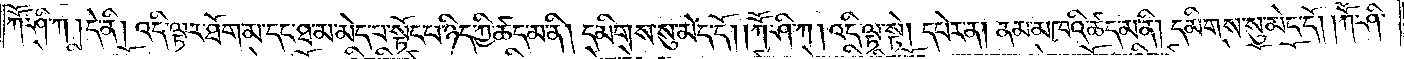ཀཽ་ཤི་ཀ །དེ་ནི། འདི་ལྟར་ཐོག་མ་དང་ཐ་མ་མེད་པ་སྟོང་པ་ཉིད་ཀྱི་ཚད་མ་ནི། དམིགས་སུ་མེད་དོ། །ཀཽ་ཤི་ཀ། འདི་ལྟ་སྟེ། དཔེར་ན། ནམ་མཁའི་ཚད་མ་ནི། དམིགས་སུ་མེད་དོ། །ཀཽ་ཤི་
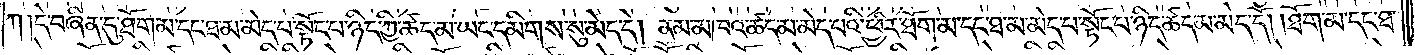ཀ །དེ་བཞིན་དུ་ཐོག་མ་དང་ཐ་མ་མེད་པ་སྟོང་པ་ཉིད་ཀྱི་ཚད་མ་ཡང་དམིགས་སུ་མེད་དེ། ནམ་མཁའ་ཚད་མ་མེད་པའི་ཕྱིར་ཐོག་མ་དང་ཐ་མ་མེད་པ་སྟོང་པ་ཉིད་ཚད་མེད་དོ། །ཐོག་མ་དང་ཐ་
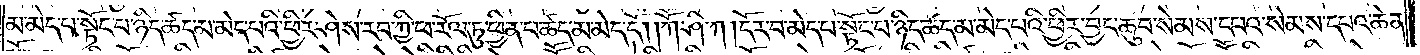མ་མེད་པ་སྟོང་པ་ཉིད་ཚད་མ་མེད་པའི་ཕྱིར་ཤེས་རབ་ཀྱི་ཕ་རོལ་ཏུ་ཕྱིན་པ་ཚད་མ་མེད་དོ། །ཀཽ་ཤི་ཀ །དོར་བ་མེད་པ་སྟོང་པ་ཉིད་ཚད་མ་མེད་པའི་ཕྱིར་བྱང་ཆུབ་སེམས་དཔའ་སེམས་དཔའ་ཆེན་
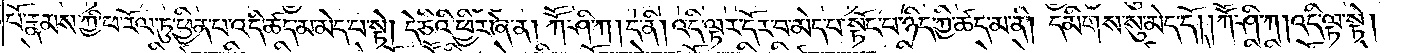པོ་རྣམས་ཀྱི་ཕ་རོལ་ཏུ་ཕྱིན་པ་འདི་ཚད་མ་མེད་པ་སྟེ། དེ་ཅིའི་ཕྱིར་ཞེ་ན། ཀཽ་ཤི་ཀ །དེ་ནི། འདི་ལྟར་དོར་བ་མེད་པ་སྟོང་པ་ཉིད་ཀྱི་ཚད་མ་ནི། དམིགས་སུ་མེད་དོ། །ཀཽ་ཤི་ཀ །འདི་ལྟ་སྟེ། །
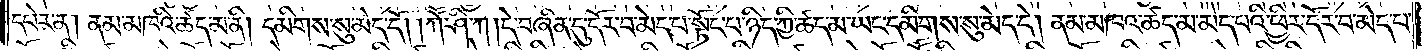དཔེར་ན། ནམ་མཁའི་ཚད་མ་ནི། དམིགས་སུ་མེད་དོ། །ཀཽ་ཤི་ཀ །དེ་བཞིན་དུ་དོར་བ་མེད་པ་སྟོང་པ་ཉིད་ཀྱི་ཚད་མ་ཡང་དམིགས་སུ་མེད་དེ། ནམ་མཁའ་ཚད་མ་མེད་པའི་ཕྱིར་དོར་བ་མེད་པ་
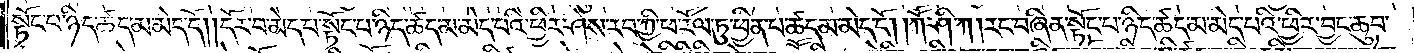སྟོང་པ་ཉིད་ཚད་མ་མེད་དོ། །དོར་བ་མེད་པ་སྟོང་པ་ཉིད་ཚད་མ་མེད་པའི་ཕྱིར་ཤེས་རབ་ཀྱི་ཕ་རོལ་ཏུ་ཕྱིན་པ་ཚད་མ་མེད་དོ། །ཀཽ་ཤི་ཀ །རང་བཞིན་སྟོང་པ་ཉིད་ཚད་མ་མེད་པའི་ཕྱིར་བྱང་ཆུབ་
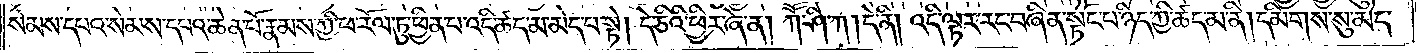སེམས་དཔའ་སེམས་དཔའ་ཆེན་པོ་རྣམས་ཀྱི་ཕ་རོལ་ཏུ་ཕྱིན་པ་འདི་ཚད་མ་མེད་པ་སྟེ། དེ་ཅིའི་ཕྱིར་ཞེ་ན། ཀཽ་ཤི་ཀ །དེ་ནི། འདི་ལྟར་རང་བཞིན་སྟོང་པ་ཉིད་ཀྱི་ཚད་མ་ནི། དམིགས་སུ་མེད་
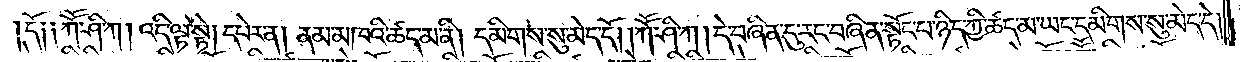དོ། །ཀཽ་ཤི་ཀ །འདི་ལྟ་སྟེ། དཔེར་ན། ནམ་མཁའི་ཚད་མ་ནི། དམིགས་སུ་མེད་དོ། །ཀཽ་ཤི་ཀ །དེ་བཞིན་དུ་རང་བཞིན་སྟོང་པ་ཉིད་ཀྱི་ཚད་མ་ཡང་དམིགས་སུ་མེད་དེ།
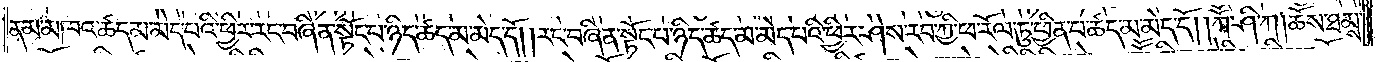ནམ་མཁའ་ཚད་མ་མེད་པའི་ཕྱིར་རང་བཞིན་སྟོང་པ་ཉིད་ཚད་མ་མེད་དོ། །རང་བཞིན་སྟོང་པ་ཉིད་ཚད་མ་མེད་པའི་ཕྱིར་ཤེས་རབ་ཀྱི་ཕ་རོལ་ཏུ་ཕྱིན་པ་ཚད་མ་མེད་དོ། །ཀཽ་ཤི་ཀ །ཆོས་ཐམས་
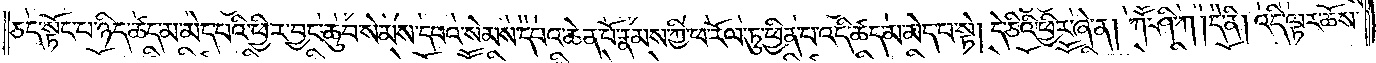ཅད་སྟོང་པ་ཉིད་ཚད་མ་མེད་པའི་ཕྱིར་བྱང་ཆུབ་སེམས་དཔའ་སེམས་དཔའ་ཆེན་པོ་རྣམས་ཀྱི་ཕ་རོལ་ཏུ་ཕྱིན་པ་འདི་ཚད་མ་མེད་པ་སྟེ། དེ་ཅིའི་ཕྱིར་ཞེ་ན། ཀཽ་ཤི་ཀ །དེ་ནི། འདི་ལྟར་ཆོས་
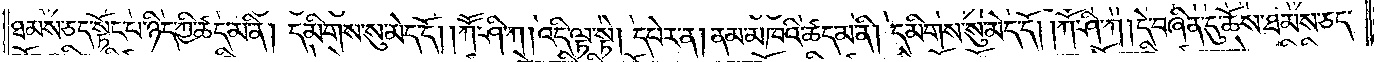ཐམས་ཅད་སྟོང་པ་ཉིད་ཀྱི་ཚད་མ་ནི། དམིགས་སུ་མེད་དོ། །ཀཽ་ཤི་ཀ །འདི་ལྟ་སྟེ། དཔེར་ན། ནམ་མཁའི་ཚད་མ་ནི། དམིགས་སུ་མེད་དོ། །ཀཽ་ཤི་ཀ །དེ་བཞིན་དུ་ཆོས་ཐམས་ཅད་
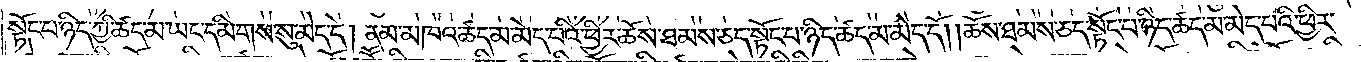སྟོང་པ་ཉིད་ཀྱི་ཚད་མ་ཡང་དམིགས་སུ་མེད་དེ། ནམ་མཁའ་ཚད་མ་མེད་པའི་ཕྱིར་ཆོས་ཐམས་ཅད་སྟོང་པ་ཉིད་ཚད་མ་མེད་དོ། །ཆོས་ཐམས་ཅད་སྟོང་པ་ཉིད་ཚད་མ་མེད་པའི་ཕྱིར་
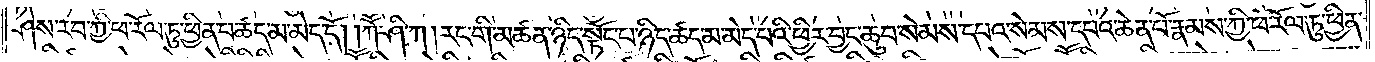ཤེས་རབ་ཀྱི་ཕ་རོལ་ཏུ་ཕྱིན་པ་ཚད་མ་མེད་དོ། །ཀཽ་ཤི་ཀ། རང་གི་མཚན་ཉིད་སྟོང་པ་ཉིད་ཚད་མ་མེད་པའི་ཕྱིར་བྱང་ཆུབ་སེམས་དཔའ་སེམས་དཔའ་ཆེན་པོ་རྣམས་ཀྱི་ཕ་རོལ་ཏུ་ཕྱིན་
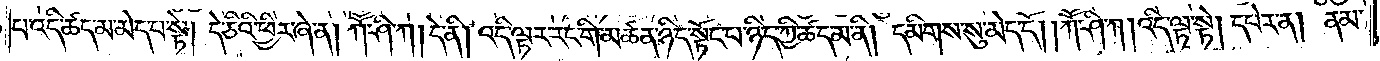པ་འདི་ཚད་མ་མེད་པ་སྟེ། དེ་ཅིའི་ཕྱིར་ཞེ་ན། ཀཽ་ཤི་ཀ །དེ་ནི། འདི་ལྟར་རང་གི་མཚན་ཉིད་སྟོང་པ་ཉིད་ཀྱི་ཚད་མ་ནི། དམིགས་སུ་མེད་དོ། །ཀཽ་ཤི་ཀ །འདི་ལྟ་སྟེ། དཔེར་ན། ནམ་
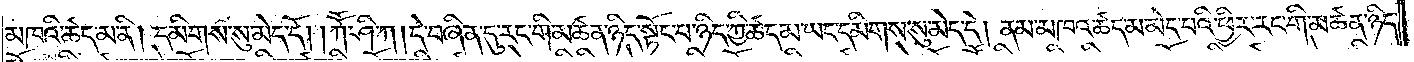མཁའི་ཚད་མ་ནི། དམིགས་སུ་མེད་དོ། །ཀཽ་ཤི་ཀ །དེ་བཞིན་དུ་རང་གི་མཚན་ཉིད་སྟོང་པ་ཉིད་ཀྱི་ཚད་མ་ཡང་དམིགས་སུ་མེད་དེ། ནམ་མཁའ་ཚད་མ་མེད་པའི་ཕྱིར་རང་གི་མཚན་ཉིད་
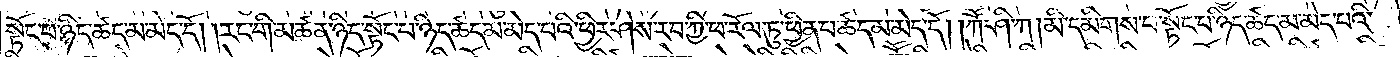སྟོང་པ་ཉིད་ཚད་མ་མེད་དོ། །རང་གི་མཚན་ཉིད་སྟོང་པ་ཉིད་ཚད་མ་མེད་པའི་ཕྱིར་ཤེས་རབ་ཀྱི་ཕ་རོལ་ཏུ་ཕྱིན་པ་ཚད་མ་མེད་དོ། །ཀཽ་ཤི་ཀ །མི་དམིགས་པ་སྟོང་པ་ཉིད་ཚད་མ་མེད་པའི་
